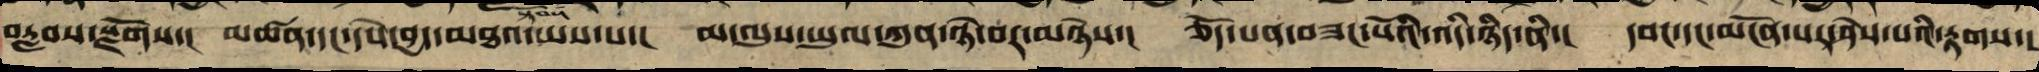བརླབས་སྫོགས་། མཚན་དང་དཔེ་བྱད་མཐའ་ཡས་པ་། མ་ལུས་ཡུལ་ཀུན་ཉེ་བར་མཉེས་། ཅོད་པན་བཟང་པོའི་འདི་ཉིད་ནི་། དབང་དང་མངོན་པར་ཤེས་པའི་རྟགས་།
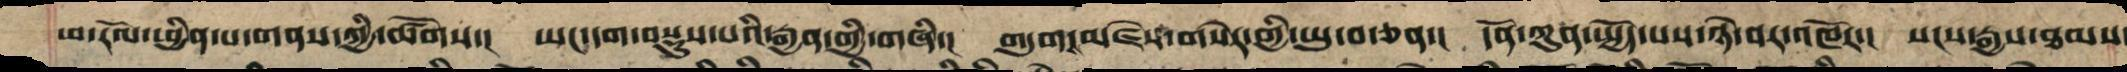ཕ་རོལ་ཕྱིན་པའི་གནས་ཀྱི་ཚོགས་། ཡང་དག་བསྡུས་པའི་རྒྱན་གྱི་གཞི་། གདུགས་མཛེས་གསེར་གྱི་ཡུ་བ་ཅན་། དོན་ཀུན་སྤྱོད་པས་ཉེ་བར་འཁོར་། སངས་རྒྱས་ཐམས
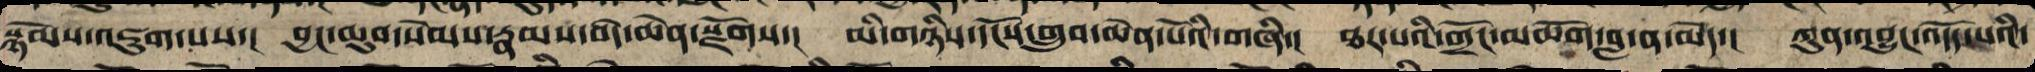སྙོམས་འཇུག་པས་། བྱང་ཆུབ་སེམས་རྣམས་བདེ་ཆེན་སྫོགས་། མི་གཉིས་དངོས་གྲུབ་ཆེན་པོའི་གཞི་། ཐར་པའི་གྲོང་མཆོག་བླ་ན་མེད་། ཀུན་འབྱུང་འདོད་པའི་
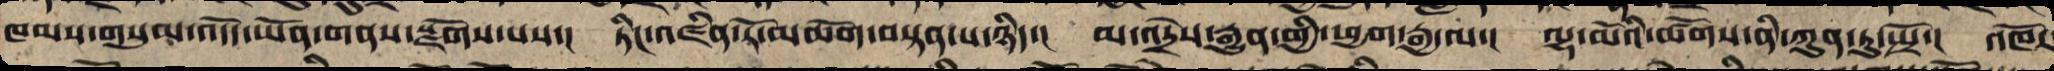ཁམས་གསུམ་འདོད་ཡོན་གནས་སྫོགས་པས་། ཏིང་འཛིན་རོ་མཆོག་བསྟན་པ་ཉིད་། མ་འདྲེས་རྒྱུན་གྱི་ཕྱག་རྒྱ་ལ་། ལྷ་མོའི་ཚོགས་ནི་ཀུན་ཏུ་སྤྲོ་། འཁོར་
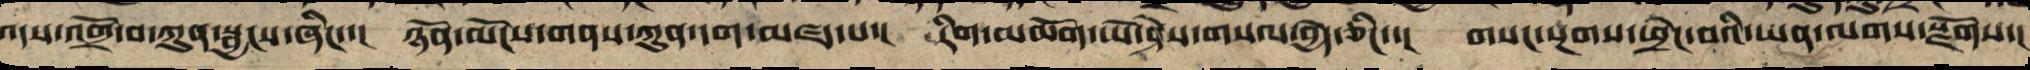འདས་འགྲོ་བ་ཀུན་སྦྱངས་ཞིང་་། ཉོན་མོངས་གནས་ཀུན་དག་མཛད་པ་། རིགས་མཆོག་ཡེ་ཤེས་གསལ་བྱེད་ཅིང་་། གསང་སྔགས་ཕྲེང་བའི་ཡན་ལགས་སྫོགས་།
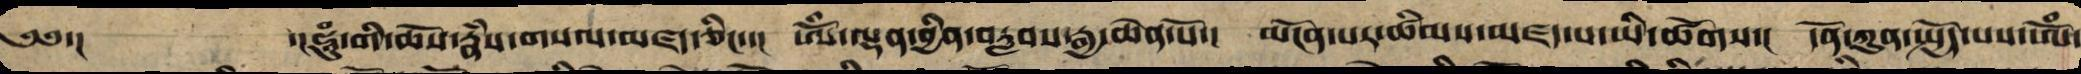༄༅་། ་།ཧཱུཾ་གིས་ཆོས་རྣཾས་གསལ་མཛད་ཅིང་་། ཨོཾ་ལྡན་བྱིན་བརླབས་རྒྱ་ཆེན་པོ་། མངོན་པར་ཚིམས་མཛད་སྭ་ཡི་ཚོགས་། དོན་ཀུན་སྤྱོད་པས་ཨོཾ་
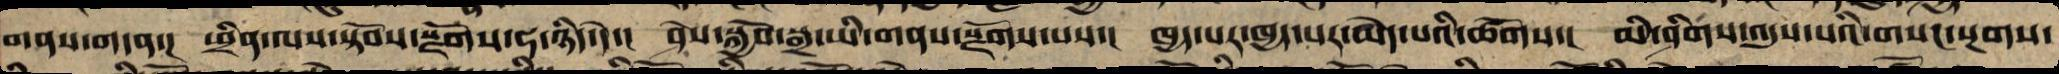གནས་གདན་། ཕྲིན་ལས་སྟོབས་སྫོགས་ཧ་ཉིད་དེ་། ཤེས་སྐྱོབ་སྒྲ་ཡི་གནས་སྫོགས་པས་། ཁྱད་པར་ཁྱད་པར་མེད་པའི་ཚོགས་། མི་ཤིགས་འདུས་པའི་གསང་སྔགས་
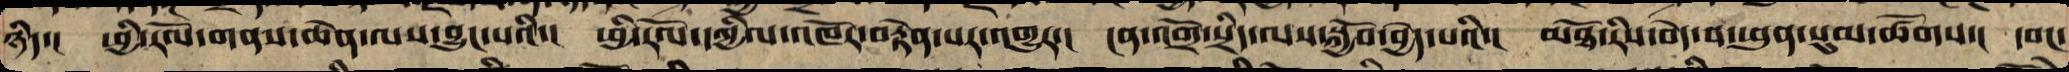ཉིད་། ཕྱི་རོལ་གནས་ཆེན་ལས་བྱུང་བའི་། ཕྱི་རོལ་དཀྱིལ་འཁོར་བརྟེན་པར་འགྱུར་། ངན་འགྲོ་སྲིད་ལས་སྐྱོབ་བྱེད་པའི་། མཐོ་རིས་བདེ་བ་ཕུན་སུམ་ཚོགས་། དབང་
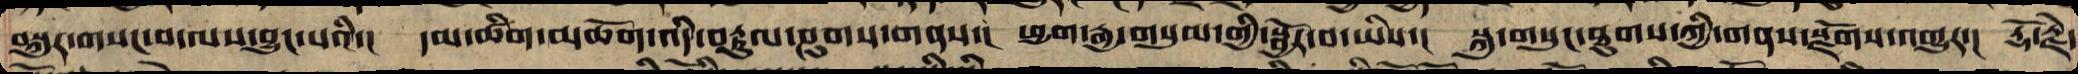བསྐུར་གསང་བ་ལས་བྱུང་བའི་། དམ་ཚིག་མཆོག་འདི་བརྟུལ་ཤུགས་གནས་། ཕྱག་རྒྱ་གསུམ་གྱི་སྦྱོར་བ་ཡིས་། སྐུ་གསུང་ཐུགས་ཀྱི་གནས་སྫོགས་འགྱུར་། རྡོ་རྗེ་
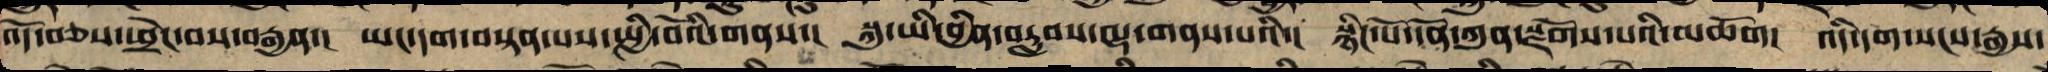འོད་བཅས་ཕྲེང་བས་བརྒྱན་། ཡང་དག་བསྟན་པས་སྤྱི་བོའི་གནས་། སྐུ་ཡི་བྱིན་བརླབས་ལྷག་གནས་པའི་། སྙིང་པོ་དོན་ཀུན་སྫོགས་པའི་མཆོག། འདི་དག་སངས་རྒྱས་
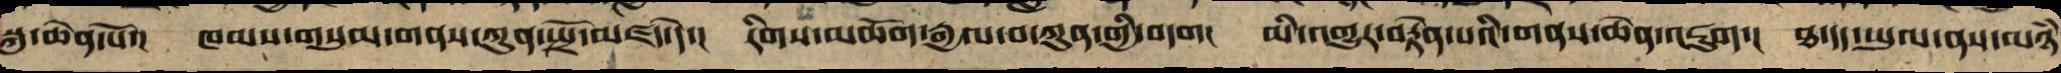སྐུ་ཆེན་པོ་། ཁམས་གསུམ་གནས་ཀུན་སྤྲོ་མཛད་དེ་། རིགས་མཆོག་རྒྱལ་བ་ཀུན་གྱི་བདག། མི་འགྱུར་བརྟེན་པའི་གནས་ཆེན་འཇུག། ཐ་དད་ཡུལ་ནས་མཉཾ
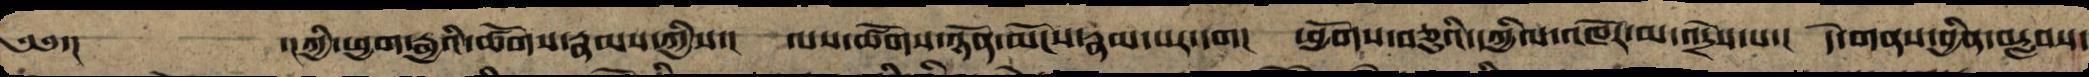༄༅་།  ་།ཀྱི་ཕྱག་རྒྱའི་ཚོགས་རྣམས་ཀྱིས་། ལས་ཚོགས་ཉོན་མོངས་རྣམ་པར་དག། ཕྱོགས་བཅུའི་དཀྱིལ་འཁོར་མ་འདྲེས་པ་། དེ་གནས་བྱིན་བརླབས་
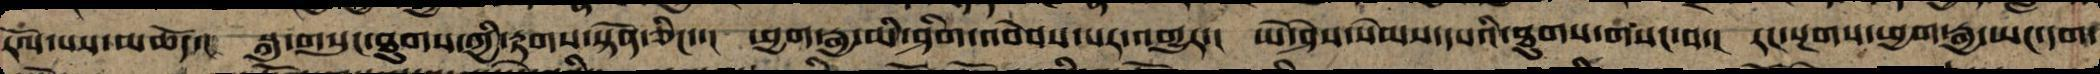རོལ་པས་མཆོད་། སྐུ་གསུང་ཐུགས་ཀྱི་རྟགས་སྟོན་ཅིང་་། ཕྱག་རྒྱ་མི་ཤིགས་འབེབས་པར་འགྱུར་། ཡེ་ཤེས་སེམས་དཔའི་ཐུགས་གསང་བ་། རང་སྔགས་ཕྱག་རྒྱ་ཡང་དག་
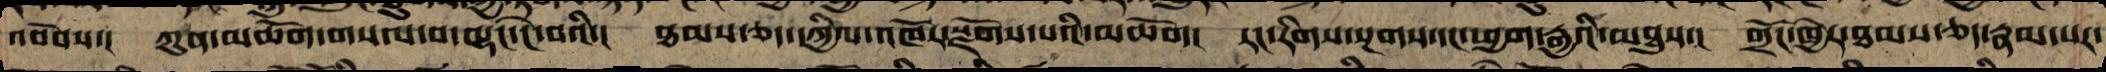འབེབས་། ཀུན་མཆོག་གསལ་བ་ལྷང་ངེ་བའི་། ཐམས་ཅད་དཀྱིལ་འཁོར་སྫོགས་པའི་མཆོག། རང་གི་སྔགས་དང་ཕྱག་རྒྱའི་མཐུས་། གྲོང་ཁྱེར་ཐམས་ཅད་རྣམ་པར་
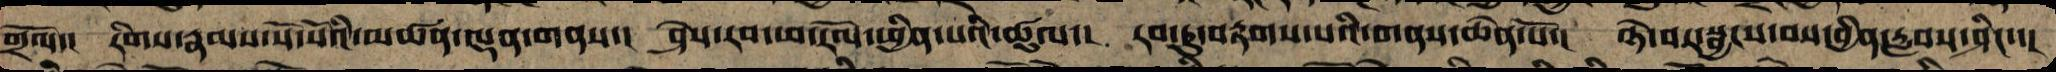གྲོལ་། རིགས་རྣམས་སོ་སོའི་མཚན་ལྡན་གནས་། ཤེས་རབ་ཕ་རོལ་ཕྱིན་པའི་ཚུལ་། རབ་ཏུ་བརྟགས་པའི་གནས་ཆེན་པོ་། ཉེ་བར་སྦྱངས་བས་བྱིན་རླབས་ཤིང་་།
